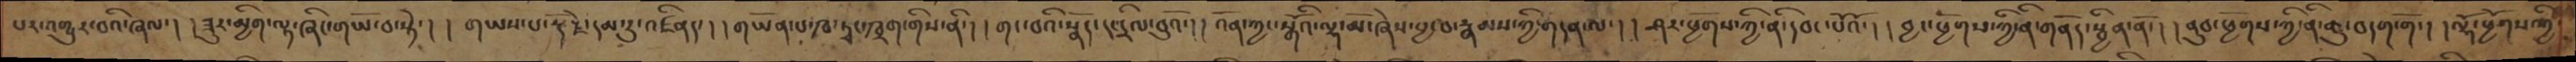པར་འགྱུར་བའི་ཞལ་། །ཟུར་མྱིག་ལྟ་ཞིང་གཡོ་བ་སྟེ་། །གཡས་པ་རྡོ་རྗེ་དམ་དུ་འཛིནད་། །གཡོན་པ་ཁ་ཏྭང་ཁྲག་གིས་ནི་། །གང་བའི་སྣོད་དང་དྲིལ་བུའོ་། །འོན་ཀྱང་སྒོའི་ལྷ་མོ་ཞེས་བྱ་བ་རྣམས་ཀྱི་གདན་ལ་། །ཤར་ཕྱོགས་ཀྱི་ནི་དབང་པོའོ་། །བྱང་ཕྱོགས་ཀྱི་ནི་གནོད་སྦྱིན་ནོ་། །ནུབ་ཕྱོགས་ཀྱི་ནི་ཆུ་བདག་གོ་། །ལྷོ་ཕྱོགས་ཀྱི་
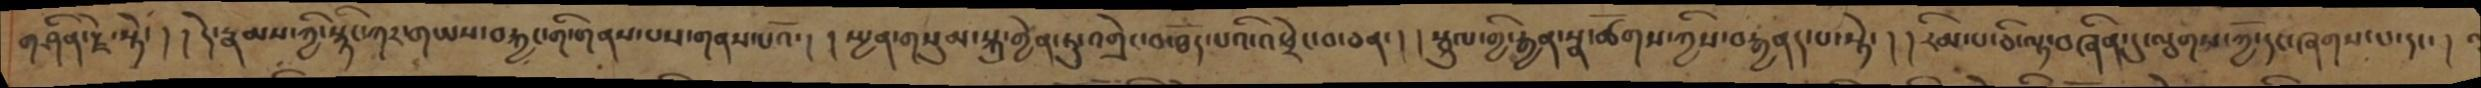གཤིན་རྗེ་སྟེ་། །དེ་རྣམས་ཀྱི་སྙིང་ཀར་གཡས་བརྐྱང་གི་གནས་པས་གནས་པའོ་། །སྤྱན་གསུམ་སྐུ་གྱེན་ཏུ་འགྲེང་བ་ཐོད་པའི་འཕྲེང་བ་ཅན་། །སྦྲུལ་གྱི་རྒྱན་སྣ་ཚོགས་ཀྱིས་བརྒྱནད་པ་སྟེ་། །རིམ་པ་ཅི་ལྟ་བཞིན་དུ་ལྕགས་ཀྱོ་དང་ཞགས་པ་དང་།
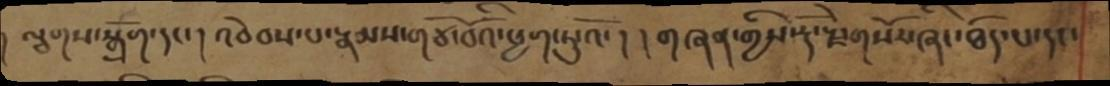། ལྕགས་སྒྲོག་དང་། འབེབས་པ་རྣམས་གཙོ་བོའི་ཕྱག་ཏུ་འོ་། །གཞན་གྱིས་རྡོ་རྗེ་གསོར་ཞིང་ཐོད་པ་དང་
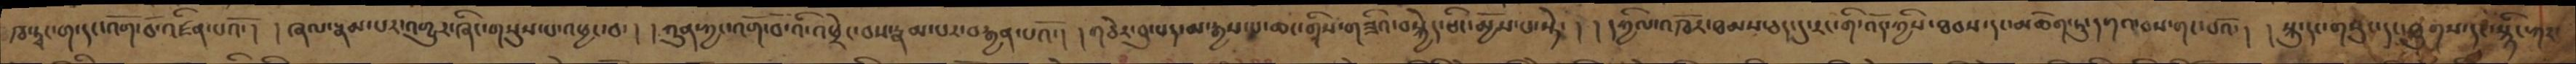ཁ་ཏྭང་ག་དང་འགོ་བོ་འཛིན་པའོ་། །ཞལ་རྣམ་པར་འགྱུར་ཞིང་གསུས་པ་འཕྱང་བ་། །ཀུན་ཀྱང་འགོ་བ་འི་འཕྲེང་བས་རྣམ་པར་བརྒྱན་པའོ་། །གཅེར་བུ་པད་མ་རྒྱས་པ་ཆང་གིས་གཟིའ་བསྐྱེད་ཅིང་མྱོས་པ་སྟེ་། །དཀྱིལ་འཁོར་ཐམས་ཅད་དུ་རང་གི་འོད་ཀྱིས་ཐབས་དང་མཆོག་ཏུ་དགའ་བས་གང་པའོ་། །སྐུ་དང་གསུང་དང་ཐུགས་དང་སྙིང་ཀར་
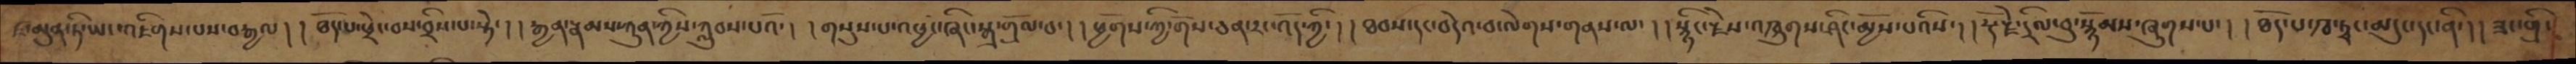ཛ་མུན་ཏི་ཡང་འཇིགས་པས་བརྒྱལ། །ཐོད་པ་ཕྲེང་བས་བྲིས་པ་སྟེ་། །རྒྱན་རྣམས་ཀུན་ཀྱིས་ཀླུབས་པའོ་། །གུས་པ་འཕྱང་ཞིང་སྐྲ་གྲོལ་པ་། །ཕྱོགས་ཀྱི་གོས་ཅན་རང་འོད་ཀྱི་། །ཐབས་དང་བདེའ་བ་ལེགས་གནས་ལ་། །སྙིང་རྗེས་འཁྲུགས་ཤིང་མྱོས་པའིས་། །རྡོ་རྗེ་དྲིལ་བུ་སྙོམས་ཞུགས་པ་། །ཐོད་པ་ཁ་ཏྭང་མདུང་དང་ནི་། །ཟང་གྲི་
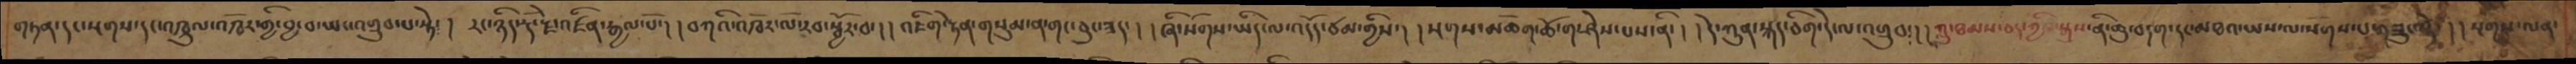གཏན་དང་སྔགས་དང་འཁྲུལ་འཁོར་གྱི་བྱ་བ་ཡང་འགྲུབ་པ་སྟེ་། རང་ཉིད་རྡོ་རྗེ་འཛིན་རྒྱལ་པོ་། །བཀའི་འཁོར་ལོ་རབ་སྦྱོར་བ་། །འཇིག་རྟེན་གསུམ་ན་གང་ཅུང་ཟད་། །ཞི་སོགས་ཡིད་ལ་འོད་ཙམ་གྱིས་། སྔགས་མཆོག་ཆོ་ག་ཤེས་པས་ནི་། །དེ་ཀུན་སྐད་ཅིག་རེ་ལ་འགྲུབ་། །ཀླུ་ཐམས་ཅད་ཀྱི་སྐུས་ནི་ཆུ་བདག་རང་མཐའ་ཡས་ལ་སོགས་པ་གཟུང་སྟེ་། །སྔགས་ལན་
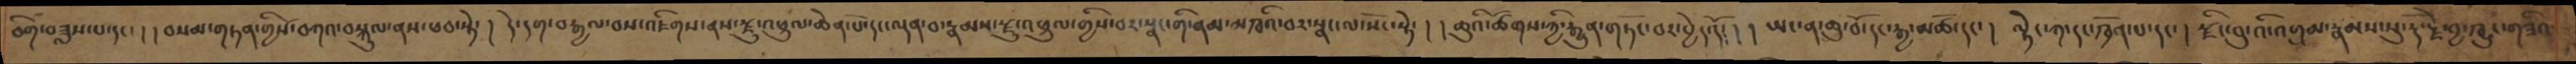ཅིག་བཟླས་པ་དང་། །བསམ་གཏན་གྱིས་བཀའ་བསྐུལ་ནས་ཕབ་སྟེ་། །དེ་དག་བརྒྱལ་བས་འཇིགས་ནས་རྫུ་འཕྲུལ་ཆེན་པོ་དང་ལྡན་བ་རྣམས་རྫུ་འཕྲུལ་གྱིས་བར་སྣང་གི་ནམ་མཁའི་བར་སྣང་ལ་སོང་སྟེ་། །ཆུའི་ཚོགས་ཀྱི་རྒྱུན་གཏོང་བར་བྱེད་དོ་། །ཡང་ན་ཆུ་བོ་དང་རྒྱ་མཚོ་དང་། ལྟེང་ཀ་དང་ཁྲོན་པ་དང་། རྫིང་བུ་འི་འགྲམ་རྣམས་སུ་རྡོ་རྗེ་བྱ་ཁྱུང་གཟིའ་
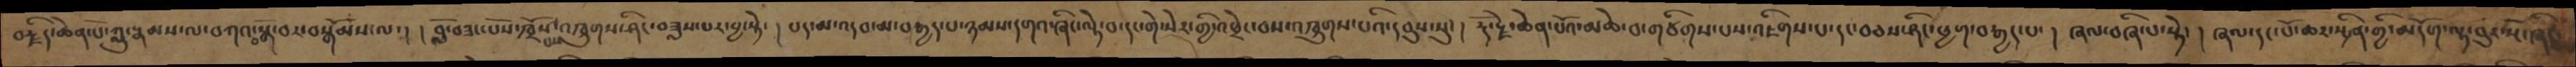བརྗིད་ཆེན་པོ་ཀླུ་རྣམས་ལ་བཀའ་བསྒོ་བར་བསྒོམས་ལ་། །བློ་བཟང་པོས་ཁྲོས་པས་འཁྲུགས་ཤིང་བཟླས་པར་བྱ་སྟེ་ ། པད་མ་འདབ་མ་བརྒྱད་པ་ཉམས་དགའ་ཞིང་ལྟེ་བ་དང་གེ་སར་གྱི་འཕྲེང་བས་འཁྲུགས་པའི་དབུས་སུ་། རྡོ་རྗེ་ཆེན་པོའ་མཆེ་བ་གཙིགས་པས་འཇིགས་པ་དང་བཅས་ཤིང་ཕྱག་བརྒྱད་པ་ ། ཞལ་བཞི་པ་སྟེ་ ། ཞལ་དང་པོ་ཆར་སྤྲིན་གྱི་མདོག་ལྟ་བུར་སྔོ་ཞིང་
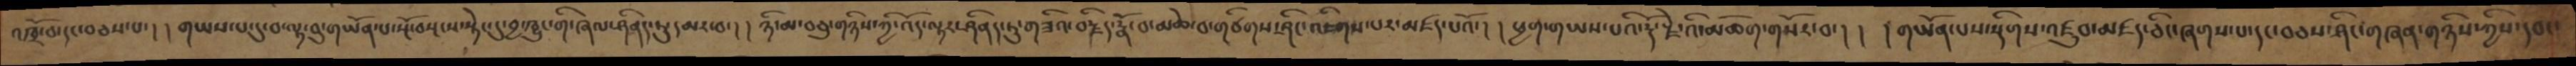འཁྲོ་བ་དང་བཅས་པ་། །གཡས་པ་དུ་བ་ལྟ་བུ་གཡོན་པ་སྔོ་བསངས་སྟེང་དུ་བྱ་ཁྱུང་གི་ཞལ་ཤིནད་ཏུ་དམར་བ་ ། །ཉི་མ་བཅུ་གཉིས་ཀྱི་འོད་ལྟར་ཤིནད་ཏུ་གཟིའ་བརྗིད་རྣོ་བ་མཆེ་བ་གཙིགས་ཤིང་འཇིགས་པར་མཛད་པའོ་ ། །ཕྱག་གཡས་པའི་རྡོ་རྗེ་འི་མཆོག་གསོར་བ་། ། །གཡོན་པས་སྡིགས་འཛུབ་མཛད་ཅིང་ཞགས་པ་དང་བཅས་ཤིང་གཞན་གཉིས་ཀྱིས་དབང་
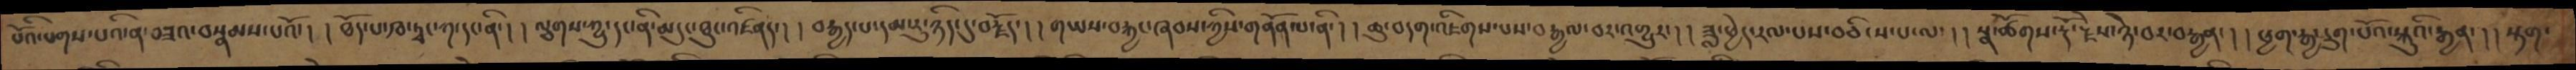པོའི་པགས་པའི་ན་བཟའ་བསྣམས་པའོ་། །ཐོད་པ་ཁ་ཏྭང་ཀ་དང་ནི་། །ལྕགས་ཀྱུ་དང་ནི་མདུང་ཐུང་འཛིན་། །བརྒྱད་པ་དམ་རུ་ཉིད་དུ་བརྗོད་། །གཡས་བརྐྱང་ཞབས་ཀྱིས་གནོན་པ་ནི་། །ཆུ་བདག་འཇིགས་པས་བརྒྱལ་བར་འགྱུར་། །ཟླ་ཕྱེད་རལ་པས་བཅིངས་པ་ལ་། །སྣ་ཚོགས་རྡོ་རྗེས་ཉེ་བར་བརྒྱན་། །ཕྱག་རྒྱ་དྲུག་པོའ་སྐུའི་རྒྱན་། །སྟག་
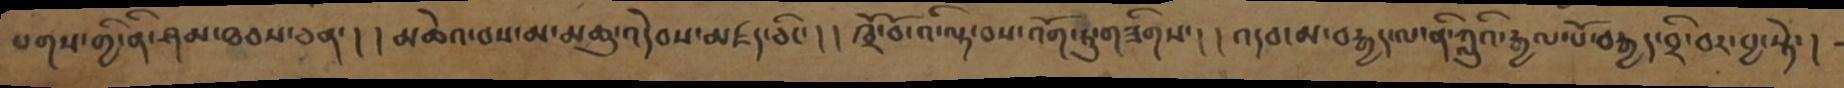པགས་གྱི་ནི་ཤམ་ཐབས་ཅན་། །མཆེའ་བས་མ་མཆུ་འདེབས་མཛད་ཅིང་། །ཁྲོ་བོ་འི་ལྟ་བས་འོག་ཏུ་གཟིགས་། །འདབ་མ་བརྒྱད་ལ་ནི་ཀླུའི་རྒྱལ་པོ་བརྒྱད་བྲི་བར་བྱ་སྟེ་།
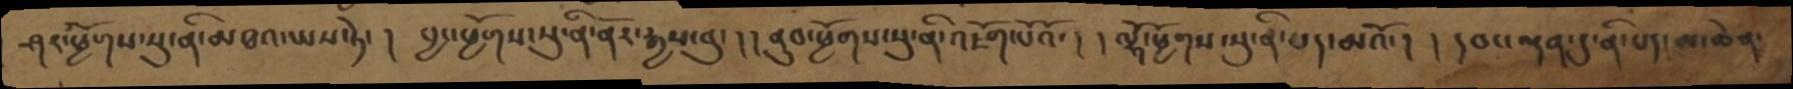ཤར་ཕྱོགས་སུ་ནི་མཐའ་ཡས་སྟེ་། བྱང་ཕྱོགས་སུ་ནི་ནོར་རྒྱས་བུ་། །ནུབ་ཕྱོགས་སུ་ནི་འཇོག་པོའོ་། །ལྷོ་ཕྱོགས་སུ་ནི་པད་མའོ་། །དབང་ལྡན་དུ་ནི་པད་མ་ཆེན་
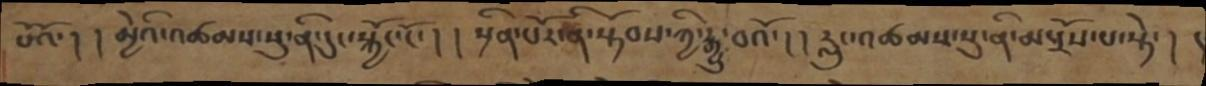པོའོ་། །མྱེའི་འཚམས་སུ་ནི་དུང་སྐྱོང་ངོ་། །སྲིན་པོར་ནི་སྟོབས་ཀྱི་རྒྱུ་བའོ་། །རླུང་འཚམས་སུ་ནི་མ་སྤྲོས་པ་སྟེ་། །
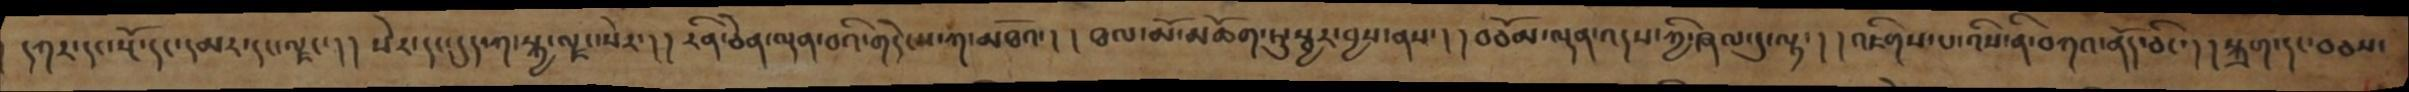དཀར་དང་སྔོ་དང་དམར་དང་ལྗང་། །སེར་དང་དུད་ཀ་སྐྱ་ལྗང་སེར་།།རིན་ཅེན་ལྡན་བའི་གདེངས་ཀ་མཐོའ་།།ཐལ་མོ་མཆོག་ཏུ་སྦྱར་བྱས་ནས་། །བཅོམ་ལྡན་འདས་ཀྱི་ཞལ་དུ་ལྟ་། །འཇིགས་པ་འིས་ནི་བཀའ་ནོད་ཅིང་།།སྐྲག་དང་བཅས་
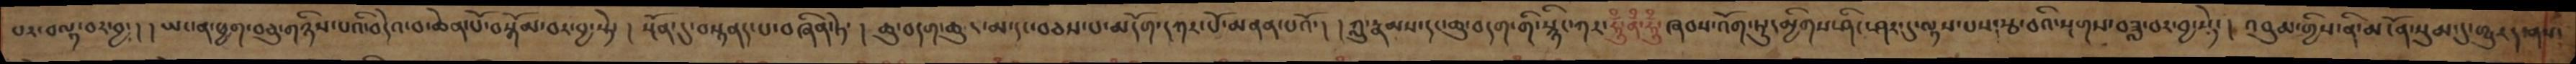པར་བལྟ་བར་བྱ་། །ཡང་ན་ཕྱག་བཅུ་གཉིས་པའི་བདེའ་བ་ཆེན་པོ་བསྒོམ་བར་བྱ་སྟེ་། སྔོན་དུ་བསྟནད་པ་བཞིན་ཏེ་། །ཆུ་བདག་ཆུང་མ་དང་བཅས་པ་མདོག་དཀར་པོ་མནན་པའོ་། །ཀླུ་རྣམས་དང་ཆུ་བདག་གི་སྙིང་ཀར་ཧཱུྃ་ནྃ་ཧཱུྃ་ཞབས་འོག་ཏུ་དམྱིགས་ཤིང་ཤར་དུ་ལྟས་པས་རྩ་བའི་སྔགས་བཟླ་བར་བྱ་སྟེ་། འབུམ་གྱིས་ནི་མངོན་སུམ་དུ་གྱུརད་ནས་
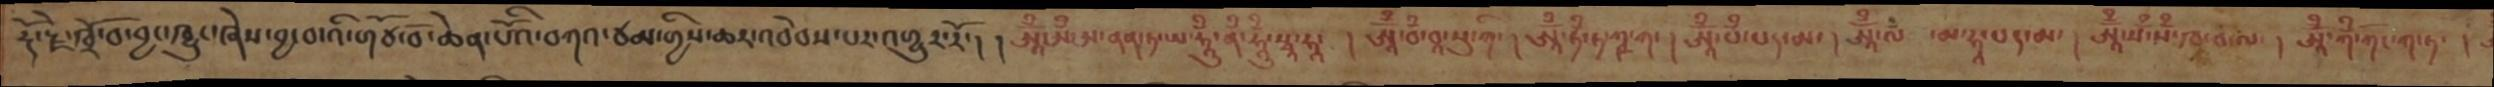རྡོ་རྗེ་ཁྲོ་བོ་བྱ་ཁྱུང་ཞེས་བྱ་བ་འི་གཙོ་བོ་ཆེན་པོའི་བཀའ་ཙམ་གྱིས་ཆར་འབེབས་པར་འགྱུར་རོ་། །ཨཱོྃ་ཨྃ་ཨ་ནན་ཏ་ཡ་ཧཱུྃ་ནྃ་ཧཱུྃ་སྭཱ་ཧཱ་། ཨཱོྃ་བྃ་བཱ་སུ་གི་། ཨཱོྃ་ཏྃ་ཏ་ཀྵ་ག་། ཨཱོྃ་པྃ་པད་མ་། ཨཱོྃ་ལྃ་ མ་ཧཱ་པད་མ་། ཨཱོྃ་སྃ་སྃ་ཁ་བ་ལ་། ཨཱོྃ་ཀོྃ་ཀོང་ག་ཏ་།
